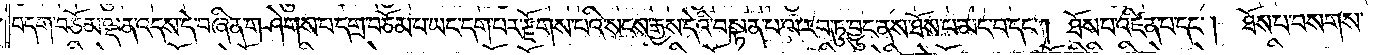བདག་བཅོམ་ལྡན་འདས་དེ་བཞིན་གཤེགས་པ་དགྲ་བཅོམ་པ་ཡང་དག་པར་རྫོགས་པའི་སངས་རྒྱས་དེའི་བསྟན་པ་ལ་རབ་ཏུ་བྱུང་ནས་ཐོས་པ་མང་བ་དང༌། ཐོས་པ་འཛིན་པ་དང༌། ཐོས་པ་བསགས་
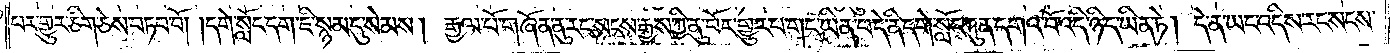པར་གྱུར་ཅིག་ཅེས་བཏབ་བོ། །དགེ་སློང་དག་ཇི་སྙམ་དུ་སེམས། རྒྱལ་པོ་གཞོན་ནུ་རང་སངས་རྒྱས་ཀྱི་ནུ་བོར་གྱུར་པ་གང་ཡིན་པ་དེ་ནི་དགེ་སློང་ཀུན་དགའ་བོ་འདི་ཉིད་ཡིན་ཏེ། དེ་ན་ཡང་འདིས་རང་སངས་
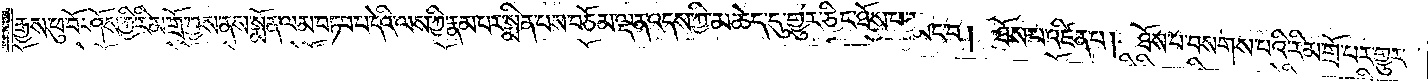རྒྱས་ཕུ་བོ་ཤོས་ཀྱི་རིམ་གྲོ་བྱས་ནས་སྨོན་ལམ་བཏབ་པ་དེའི་ལས་ཀྱི་རྣམ་པར་སྨིན་པས་བཅོམ་ལྡན་འདས་ཀྱི་མཆེད་དུ་གྱུར་ཅིང་ཐོས་པ་མང་བ། ཐོས་པ་འཛིན་པ། ཐོས་པ་བསགས་པའི་རིམ་གྲོ་པར་གྱུར་
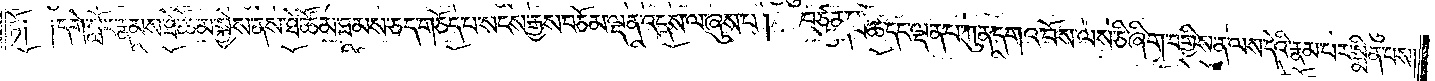ཏོ། །དགེ་སློང་རྣམས་ཐེ་ཚོམ་སྐྱེས་ནས་ཐེ་ཚོམ་ཐམས་ཅད་གཅོད་པ་སངས་རྒྱས་བཅོམ་ལྡན་འདས་ལ་ཞུས་པ། བཙུན་པ་ཚེ་དང་ལྡན་པ་ཀུན་དགའ་བོས་ལས་ཅི་ཞིག་བགྱིས་ན་ལས་དེའི་རྣམ་པར་སྨིན་པས།
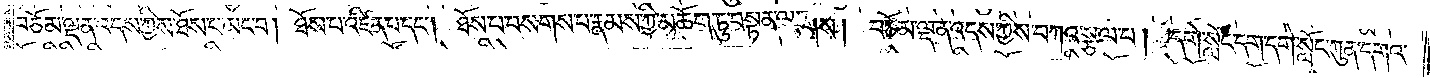བཅོམ་ལྡན་འདས་ཀྱིས་ཐོས་པ་མང་བ། ཐོས་པ་འཛིན་པ་དང༌། ཐོས་པ་བསགས་པ་རྣམས་ཀྱི་མཆོག་ཏུ་བསྟན་ལགས། བཅོམ་ལྡན་འདས་ཀྱིས་བཀའ་སྩལ་པ། དགེ་སློང་དག་དགེ་སློང་ཀུན་དགའ་
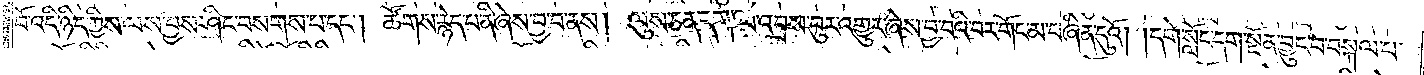བོ་འདི་ཉིད་ཀྱིས་ལས་བྱས་ཤིང་བསགས་པ་དང༌། ཚོགས་རྙེད་པ་ནི་ཞེས་བྱ་བ་ནས། ལུས་ཅན་དག་ལ་འབྲས་བུར་འགྱུར་ཞེས་བྱ་བའི་བར་གོང་མ་བཞིན་དུའོ། །དགེ་སློང་དག་སྔོན་བྱུང་བ་བསྐལ་པ་
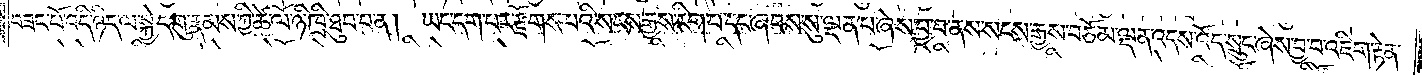བཟང་པོ་འདི་ཉིད་ལ་སྐྱེ་དགུ་རྣམས་ཀྱི་ཚེ་ལོ་ཉི་ཁྲི་ཐུབ་པ་ན། ཡང་དག་པར་རྫོགས་པའི་སངས་རྒྱས་རིག་པ་དང་ཞབས་སུ་ལྡན་པ་ཞེས་བྱ་བ་ནས་སངས་རྒྱས་བཅོམ་ལྡན་འདས་འོད་སྲུང་ཞེས་བྱ་བ་འཇིག་རྟེན་
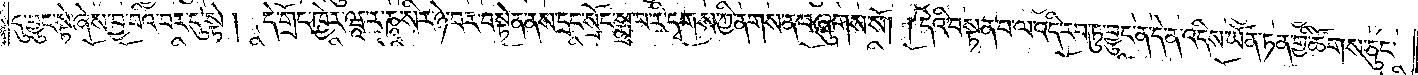དུ་བྱུང་སྟེ་ཞེས་བྱ་བའི་བར་དུ་སྟེ། དེ་གྲོང་ཁྱེར་ཝཱ་ར་ཎཱ་སིར་ཉེ་བར་བསྟེན་ནས་དྲང་སྲོང་སྨྲ་བ་རི་དྭགས་ཀྱི་ནགས་ན་བཞུགས་སོ། །དེའི་བསྟན་པ་ལ་འདི་རབ་ཏུ་བྱུང་ན་དེ་ན་འདིས་ཡོན་ཏན་གྱི་ཚོགས་ཅུང་
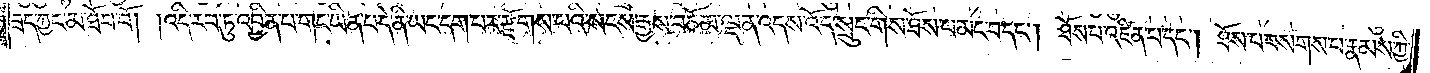ཟད་ཀྱང་མ་ཐོབ་བོ། །འདི་རབ་ཏུ་འབྱིན་པ་གང་ཡིན་པ་དེ་ནི་ཡང་དག་པར་རྫོགས་པའི་སངས་རྒྱས་བཅོམ་ལྡན་འདས་འོད་སྲུང་གིས་ཐོས་པ་མང་བ་དང༌། ཐོས་པ་འཛིན་པ་དང༌། ཐོས་པ་བསགས་པ་རྣམས་ཀྱི་
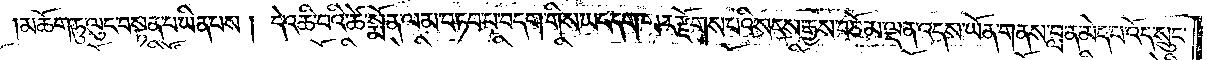མཆོག་ཏུ་ལུང་བསྟན་པ་ཡིན་པས། དེ་འཆི་བའི་ཚེ་སྨོན་ལམ་བཏབ་པ་བདག་གིས་ཡང་དག་པར་རྫོགས་པའི་སངས་རྒྱས་བཅོམ་ལྡན་འདས་ཡོན་གནས་བླ་ན་མེད་པ་འོད་སྲུང་
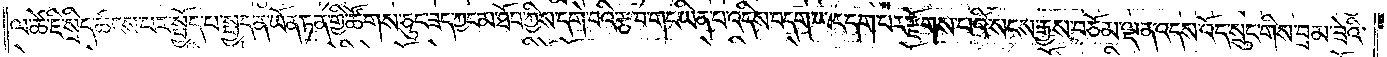ལ་ཚེ་ཇི་སྲིད་ཚངས་པར་སྤྱོད་པ་སྤྱད་ན་ཡོན་ཏན་གྱི་ཚོགས་ཅུང་ཟད་ཀྱང་མ་ཐོབ་ཀྱིས་དགེ་བའི་རྩ་བ་གང་ཡིན་པ་འདིས་བདག་ཡང་དག་པར་རྫོགས་པའི་སངས་རྒྱས་བཅོམ་ལྡན་འདས་འོད་སྲུང་གིས་བྲམ་ཟེའི་
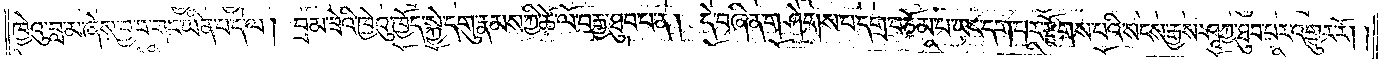ཁྱེའུ་བླ་མ་ཞེས་བྱ་བ་གང་ཡིན་པ་དེ་ལ། བྲམ་ཟེའི་ཁྱེའུ་ཁྱོད་སྐྱེ་དགུ་རྣམས་ཀྱི་ཚེ་ལོ་བརྒྱ་ཐུབ་པ་ན། དེ་བཞིན་གཤེགས་པ་དགྲ་བཅོམ་པ་ཡང་དག་པར་རྫོགས་པའི་སངས་རྒྱས་ཤཱཀྱ་ཐུབ་པར་འགྱུར་རོ། །
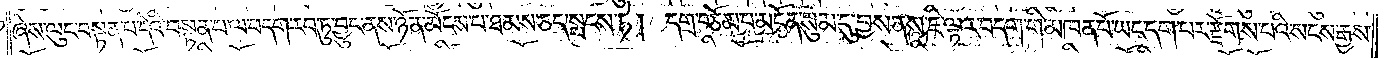ཞེས་ལུང་བསྟན་པ་དེའི་བསྟན་པ་ལ་བདག་རབ་ཏུ་བྱུང་ནས་ཉོན་མོངས་པ་ཐམས་ཅད་སྤངས་ཏེ། དགྲ་བཅོམ་པ་མངོན་སུམ་དུ་བྱས་ནས་ཇི་ལྟར་བདག་གི་མཁན་པོ་ཡང་དག་པར་རྫོགས་པའི་སངས་རྒྱས་
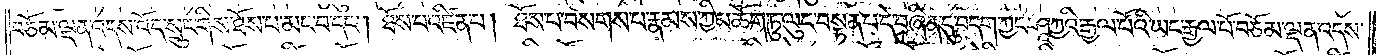བཅོམ་ལྡན་འོད་སྲུང་གིས་ཐོས་པ་མང་བ་དང༌། ཐོས་པ་འཛིན་པ། ཐོས་པ་བསགས་པ་རྣམས་ཀྱི་མཆོག་ཏུ་ལུང་བསྟན་པ་དེ་བཞིན་དུ་བདག་ཀྱང་ཤཱཀྱའི་རྒྱལ་པོའི་ཡང་རྒྱལ་པོ་བཅོམ་ལྡན་འདས་
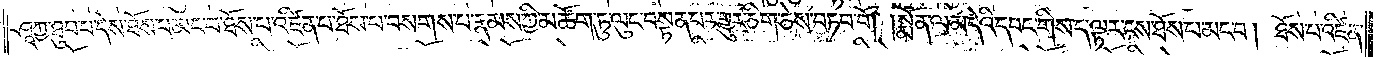ཤཱཀྱ་ཐུབ་པ་དེས་ཐོས་པ་མང་བ་ཐོས་པ་འཛིན་པ་ཐོས་པ་བསགས་པ་རྣམས་ཀྱི་མཆོག་ཏུ་ལུང་བསྟན་པར་གྱུར་ཅིག་ཅེས་བཏབ་བོ། །སྨོན་ལམ་དེའི་དབང་གིས་ད་ལྟར་ངས་ཐོས་པ་མང་བ། ཐོས་པ་འཛིན་
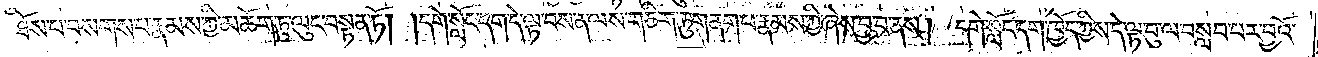པ།  ཐོས་པ་བསགས་པ་རྣམས་ཀྱི་མཆོག་ཏུ་ལུང་བསྟན་ཏོ། །དགེ་སློང་དག་དེ་ལྟ་བས་ན་ལས་གཅིག་ཏུ་གནག་པ་རྣམས་ཀྱི་ཞེས་བྱ་བ་ནས། དགེ་སློང་དག་ཁྱོད་ཀྱིས་དེ་ལྟ་བུ་ལ་བསླབ་པར་བྱའོ་
